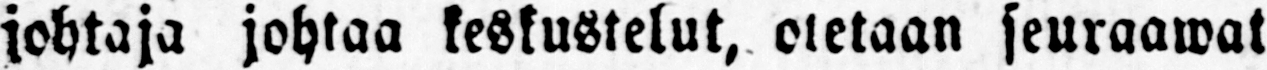johtaja johtaa keskustelut, otetaan seuraawat
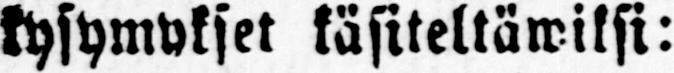kysymykset käsiteltäwiksi:
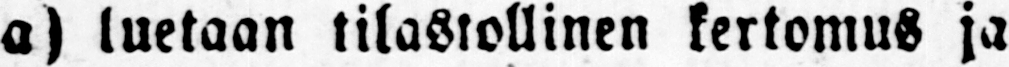a) luetaan tilastollinen kertomus ja
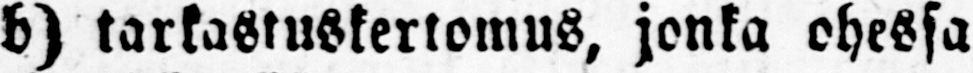h) tarkastuskertomus, jonka ohessa
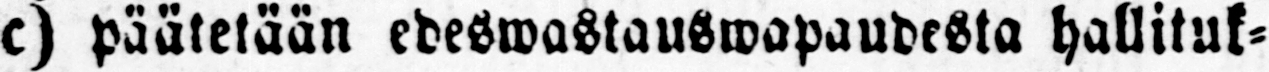c) päätetään edeswastauswapaudesta hallituk-
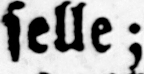selle;
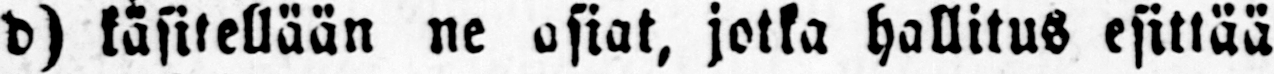d) käsitellään ne asiat, jotka hallitus esittää
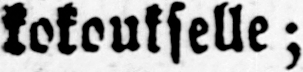kokoukselle;
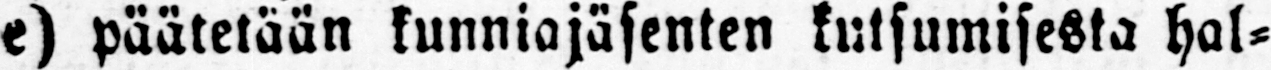e) päätetään kunniajäsenten kutsumisista hal-
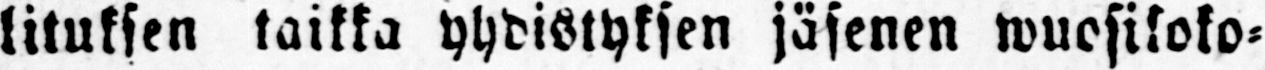lituksen taikka yhdistyksen jäsenen wuosikoko-
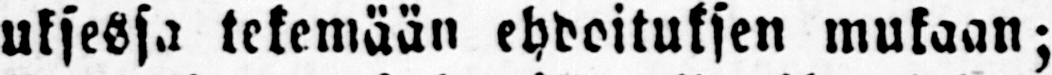uksessa tekemään ehdoituksen mukaan;
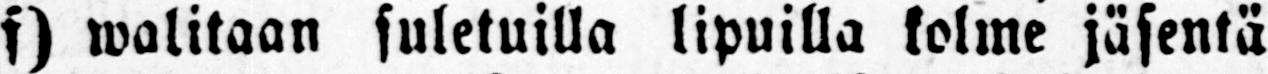f) valitaan suletuilla lipuilla kolme jäsentä
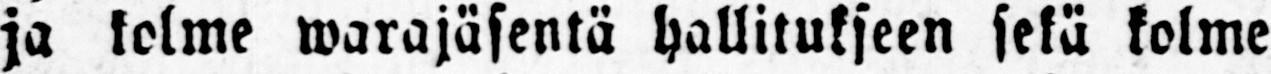ja kolme warajäsentä hallitukseen sekä kolme
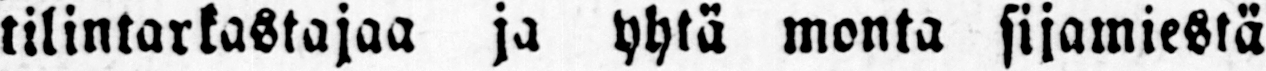tilintarkastajaa ja yhtä monta sijamiestä
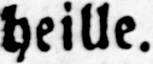heille.
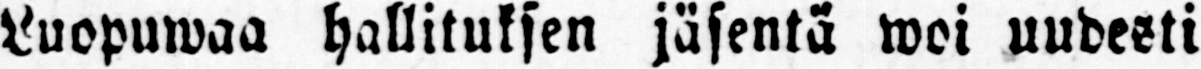Luopuwaa hallituksen jäsentä woi uudesti
